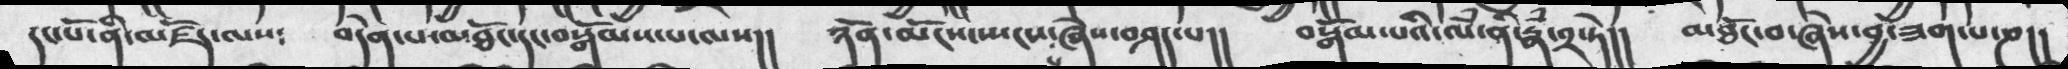དང་པོ་ནི་མཛོད་ལས༴  བདེན་པ་མཐོང་དང་བསྒོམས་པ་ལས།།  ཉོན་མོངས་སྤངས་པ་ཞེས་བཤད་པ།།  བསྒོམ་པའི་ལཾ་ནི་རྣཾ་༢་ཏེ།།  མཐོང་བ་ཞེས་བྱ་ཟག་པ་ཎ།།
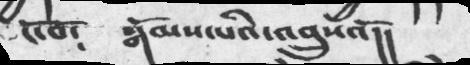ངོ་བོ༴    སྒོམས་པའི་འབྲུསའོ།།
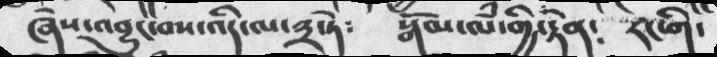ཞེས་འབྱུང་བས་འདི་ལ་༣་ཏེ༴    སྒོམ་ལཾ་གྱི་རྟེན༴     རང་གི་
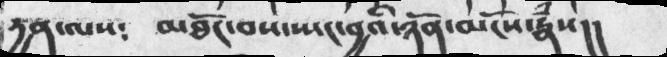དྱན་ལས༴   མཐོང་བས་སྤང་བྱའི་ཉོན་མོངས་རྣཾས།།
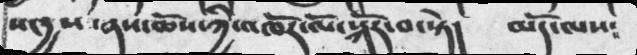སངདྱས ་ནས་ཆོས་ཀྱི་འཁོར་ལོ་སྐོར་བ་སྟེ།  མདོ་ལས༴
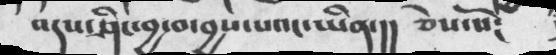འདས་ཤིང་བྱ་བ་བྱས་པའང་ཡིན་།། ཅེས་སོ༴
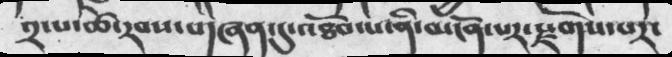༢་པ་ཚེ་རབས་གཞན་དུ་འཐོབ་པ་ནི་མངོན་པར་སྫོགས་པར་
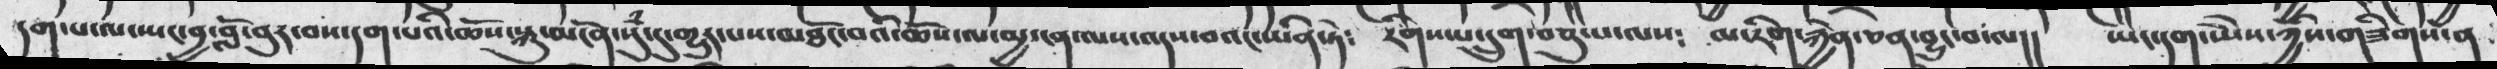དག་པ་ལ་སྤང་བྱ་བློ་བུར་བས་དག་པའི་ཆོས་སྐུ་མངོན་སུཾ་དུ་གྱུར་པས་མཐོང་བའི་ཆོས་ལ་མྱ་ངན་ལས་འདས་པའང་ཡིན་ཏེ༴   རིགས་པ་དྲུག་བཅུ་པ་ལས༴  མ་རིག་རྐྱེན་ཅན་བྱུང་བ་ལ།། ཡང་དག་ཡེེས་ཀྱིས་གཟིགས་ན
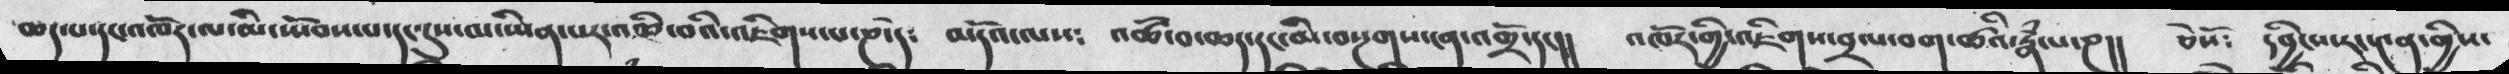ཆད་པ་དང་འཁོར་ལ་མི་སྤོབས་པ་དང་དུས་མ་པར་འཆི་བའི་འཇིགས་པ་ཎདེ༴  མདོ་ལས༴  འཚོ་བ་ཆད་རང་མི་བསྔགས་ངན་འགྲོ་དང།།  འཁོར་གྱི་འཇིགས་བྲལ་བག་ཚའི་རྣཾ་པ་ཎ།།  ཅེསོ༴  དབྱིངས་རང་༤ན་གྱིས་
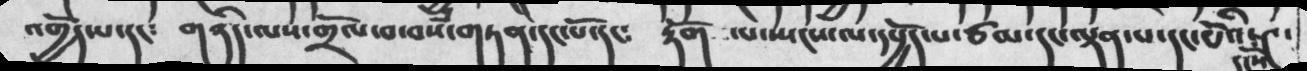འགྱོད་པ་དང༴   གཉིད་ལས་གྲོལ་བ་བསཾ་གཏན་དང་པོ་དང༴   རྟོག་པ་སྤངས་པ་དཔྱོད་པ་ཙམ་དང་ལྡན་པ་དང་པོའི་དངོས་༤་
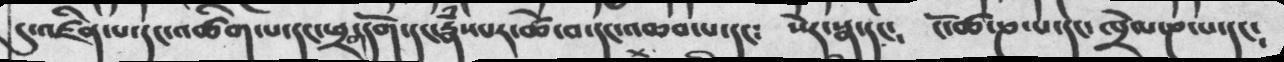དུ་འཛིན་པ་དང་འཚིག་པ་དང་ཕྲག་དོག་དང་རྣཾསཔར་ཚེ་བ་དང་འཆབ་པ་དང༴   སེར་སྣ་དང༴   ངོ་ཚ་ཎ་པ་དང་ཁྲེལ་ཎ་པ་དང༴
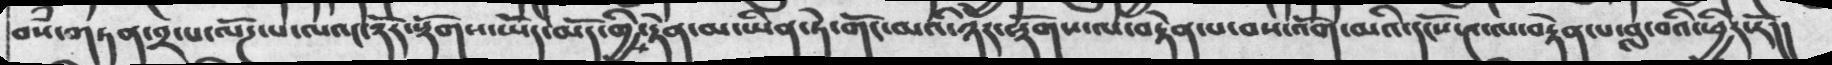བསཾ་གཏན་༢་པ་ལོཌ་པ་ལའང་ཉེར་སྡོགས་ཡོད་མོད་གྱིས་རྟེན་མ་ཡིན་ཏེ་གོང་མའི་ཉེར་སྡོགས་ལ་བརྟེན་པ་བས་འོག་མའི་དངོས་༤་ལ་བརྟེན་པ་བླ་བའི་ཕྱིར་རོ།།
